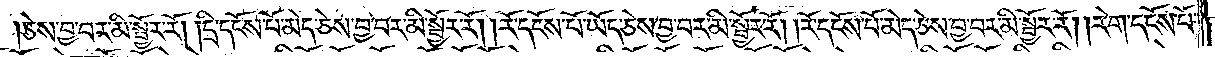ཅེས་བྱ་བར་མི་སྦྱོར་རོ། །དྲི་དངོས་པོ་མེད་ཅེས་བྱ་བར་མི་སྦྱོར་རོ། །རོ་དངོས་པོ་ཡོད་ཅེས་བྱ་བར་མི་སྦྱོར་རོ། །རོ་དངོས་པོ་མེད་ཅེས་བྱ་བར་མི་སྦྱོར་རོ། །རེག་དངོས་པོ་
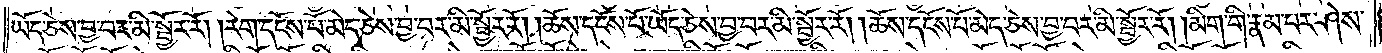ཡོད་ཅེས་བྱ་བར་མི་སྦྱོར་རོ། །རེག་དངོས་པོ་མེད་ཅེས་བྱ་བར་མི་སྦྱོར་རོ། །ཆོས་དངོས་པོ་ཡོད་ཅེས་བྱ་བར་མི་སྦྱོར་རོ། །ཆོས་དངོས་པོ་མེད་ཅེས་བྱ་བར་མི་སྦྱོར་རོ། །མིག་གི་རྣམ་པར་ཤེས་
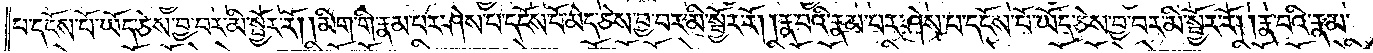པ་དངོས་པོ་ཡོད་ཅེས་བྱ་བར་མི་སྦྱོར་རོ། །མིག་གི་རྣམ་པར་ཤེས་པ་དངོས་པོ་མེད་ཅེས་བྱ་བར་མི་སྦྱོར་རོ། །རྣ་བའི་རྣམ་པར་ཤེས་པ་དངོས་པོ་ཡོད་ཅེས་བྱ་བར་མི་སྦྱོར་རོ། །རྣ་བའི་རྣམ་
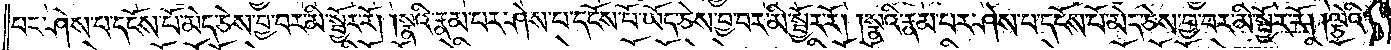པར་ཤེས་པ་དངོས་པོ་མེད་ཅེས་བྱ་བར་མི་སྦྱོར་རོ། །སྣའི་རྣམ་པར་ཤེས་པ་དངོས་པོ་ཡོད་ཅེས་བྱ་བར་མི་སྦྱོར་རོ། །སྣའི་རྣམ་པར་ཤེས་པ་དངོས་པོ་མེད་ཅེས་བྱ་བར་མི་སྦྱོར་རོ། །ལྕེའི་
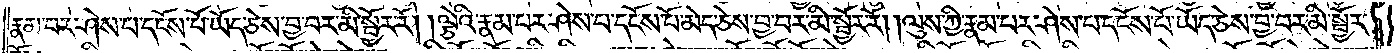རྣམ་པར་ཤེས་པ་དངོས་པོ་ཡོད་ཅེས་བྱ་བར་མི་སྦྱོར་རོ། །ལྕེའི་རྣམ་པར་ཤེས་པ་དངོས་པོ་མེད་ཅེས་བྱ་བར་མི་སྦྱོར་རོ། །ལུས་ཀྱི་རྣམ་པར་ཤེས་པ་དངོས་པོ་ཡོད་ཅེས་བྱ་བར་མི་སྦྱོར་
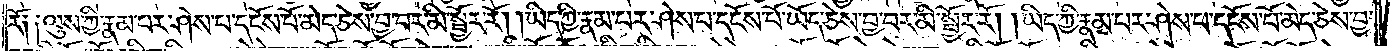རོ༑ ༑ལུས་ཀྱི་རྣམ་པར་ཤེས་པ་དངོས་པོ་མེད་ཅེས་བྱ་བར་མི་སྦྱོར་རོ། །ཡིད་ཀྱི་རྣམ་པར་ཤེས་པ་དངོས་པོ་ཡོད་ཅེས་བྱ་བར་མི་སྦྱོར་རོ། །ཡིད་ཀྱི་རྣམ་པར་ཤེས་པ་དངོས་པོ་མེད་ཅེས་བྱ་
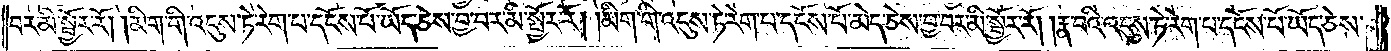བར་མི་སྦྱོར་རོ། །མིག་གི་འདུས་ཏེ་རེག་པ་དངོས་པོ་ཡོད་ཅེས་བྱ་བར་མི་སྦྱོར་རོ། །མིག་གི་འདུས་ཏེ་རེག་པ་དངོས་པོ་མེད་ཅེས་བྱ་བར་མི་སྦྱོར་རོ། །རྣ་བའི་འདུས་ཏེ་རེག་པ་དངོས་པོ་ཡོད་ཅེས་
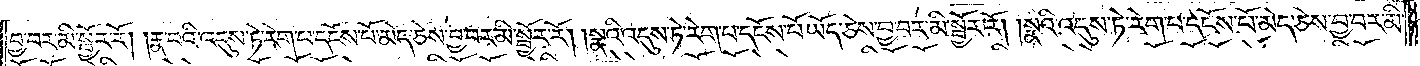བྱ་བར་མི་སྦྱོར་རོ། །རྣ་བའི་འདུས་ཏེ་རེག་པ་དངོས་པོ་མེད་ཅེས་བྱ་བར་མི་སྦྱོར་རོ། །སྣའི་འདུས་ཏེ་རེག་པ་དངོས་པོ་ཡོད་ཅེས་བྱ་བར་མི་སྦྱོར་རོ། །སྣའི་འདུས་ཏེ་རེག་པ་དངོས་པོ་མེད་ཅེས་བྱ་བར་མི་
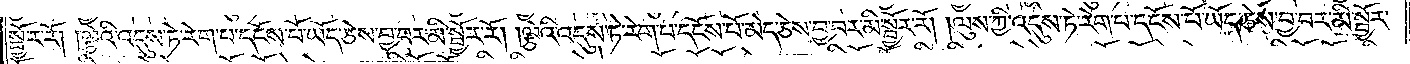སྦྱོར་རོ། །ལྕེའི་འདུས་ཏེ་རེག་པ་དངོས་པོ་ཡོད་ཅེས་བྱ་བར་མི་སྦྱོར་རོ། །ལྕེའི་འདུས་ཏེ་རེག་པ་དངོས་པོ་མེད་ཅེས་བྱ་བར་མི་སྦྱོར་རོ། །ལུས་ཀྱི་འདུས་ཏེ་རེག་པ་དངོས་པོ་ཡོད་ཅེས་བྱ་བར་མི་སྦྱོར་
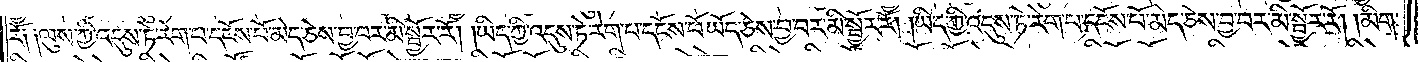རོ༑ ༑ལུས་ཀྱི་འདུས་ཏེ་རེག་པ་དངོས་པོ་མེད་ཅེས་བྱ་བར་མི་སྦྱོར་རོ། །ཡིད་ཀྱི་འདུས་ཏེ་རེག་པ་དངོས་པོ་ཡོད་ཅེས་བྱ་བར་མི་སྦྱོར་རོ། །ཡིད་ཀྱི་འདུས་ཏེ་རེག་པ་དངོས་པོ་མེད་ཅེས་བྱ་བར་མི་སྦྱོར་རོ། །མིག་
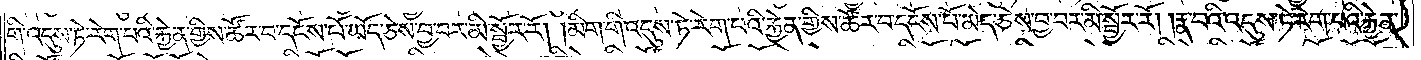གི་འདུས་ཏེ་རེག་པའི་རྐྱེན་གྱིས་ཚོར་བ་དངོས་པོ་ཡོད་ཅེས་བྱ་བར་མི་སྦྱོར་རོ། །མིག་གི་འདུས་ཏེ་རེག་པའི་རྐྱེན་གྱིས་ཚོར་བ་དངོས་པོ་མེད་ཅེས་བྱ་བར་མི་སྦྱོར་རོ། །རྣ་བའི་འདུས་ཏེ་རེག་པའི་རྐྱེན་
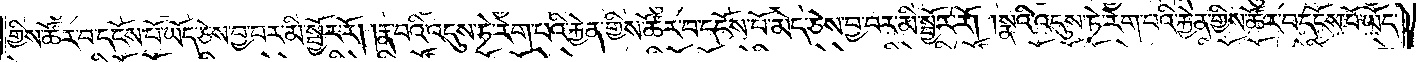གྱིས་ཚོར་བ་དངོས་པོ་ཡོད་ཅེས་བྱ་བར་མི་སྦྱོར་རོ། །རྣ་བའི་འདུས་ཏེ་རེག་པའི་རྐྱེན་གྱིས་ཚོར་བ་དངོས་པོ་མེད་ཅེས་བྱ་བར་མི་སྦྱོར་རོ། །སྣའི་འདུས་ཏེ་རེག་པའི་རྐྱེན་གྱིས་ཚོར་བ་དངོས་པོ་ཡོད་
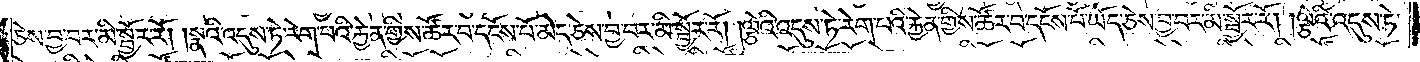ཅེས་བྱ་བར་མི་སྦྱོར་རོ། །སྣའི་འདུས་ཏེ་རེག་པའི་རྐྱེན་གྱིས་ཚོར་བ་དངོས་པོ་མེད་ཅེས་བྱ་བར་མི་སྦྱོར་རོ། །ལྕེའི་འདུས་ཏེ་རེག་པའི་རྐྱེན་གྱིས་ཚོར་བ་དངོས་པོ་ཡོད་ཅེས་བྱ་བར་མི་སྦྱོར་རོ། །ལྕེའི་འདུས་ཏེ་
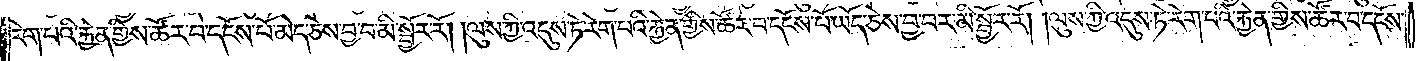རེག་པའི་རྐྱེན་གྱིས་ཚོར་བ་དངོས་པོ་མེད་ཅེས་བྱ་བ་མི་སྦྱོར་རོ། །ལུས་ཀྱི་འདུས་ཏེ་རེག་པའི་རྐྱེན་གྱིས་ཚོར་བ་དངོས་པོ་ཡོད་ཅེས་བྱ་བར་མི་སྦྱོར་རོ། །ལུས་ཀྱི་འདུས་ཏེ་རེག་པའི་རྐྱེན་གྱིས་ཚོར་བ་དངོས་
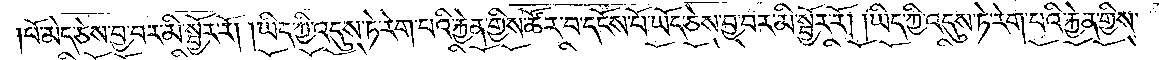པོ་མེད་ཅེས་བྱ་བར་མི་སྦྱོར་རོ། །ཡིད་ཀྱི་འདུས་ཏེ་རེག་པའི་རྐྱེན་གྱིས་ཚོར་བ་དངོས་པོ་ཡོད་ཅེས་བྱ་བར་མི་སྦྱོར་རོ། །ཡིད་ཀྱི་འདུས་ཏེ་རེག་པའི་རྐྱེན་གྱིས་
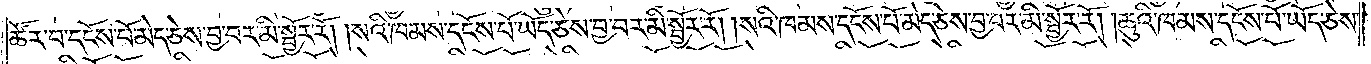ཚོར་བ་དངོས་པོ་མེད་ཅེས་བྱ་བར་མི་སྦྱོར་རོ། །སའི་ཁམས་དངོས་པོ་ཡོད་ཅེས་བྱ་བར་མི་སྦྱོར་རོ། །སའི་ཁམས་དངོས་པོ་མེད་ཅེས་བྱ་བར་མི་སྦྱོར་རོ། །ཆུའི་ཁམས་དངོས་པོ་ཡོད་ཅེས་
